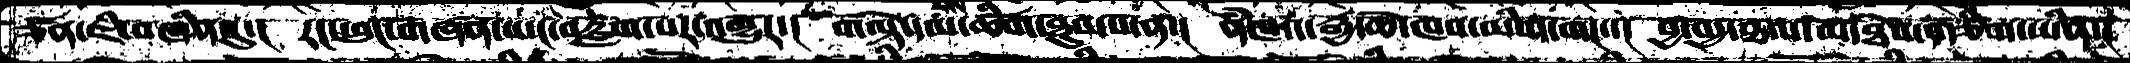ཙན་ཇི་བཞིན་དུ་།  རང་ཕུང་གཞན་ཡང་བརླག་པར་འགྱུར་། གལྟེ་དམ་ཚིག་ཐུབ་པ་ན་། ནཾཁའ་རྒྱ་ཆེ་ཁབ་མིག་གང་་། བྱ་བདྱ་ཐལ་མ་ཐོབ་གཅིག་ཡིན་།
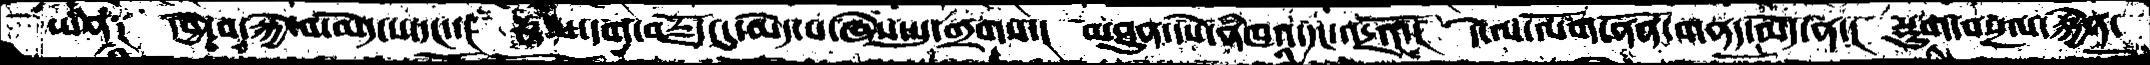ཡིན༑ དབྱེ་བ་སྐྱེ་བ་མེད་པ་དང་་།  རྣམ་དག་བརྗོད་དུ་མེད་པ་ཞེས་སུ་གྲགས་། མཐུན་དཔེ་ནཾཁའ་དང་འདྲའོ་། དེ་ལ་ལོག་ནོན་གནད་མེད་ན་། སྡུག་བསྔལ་རྐྱེན་
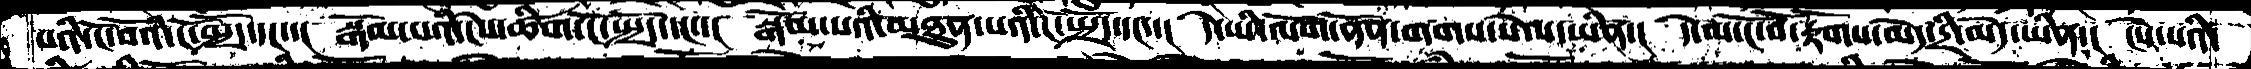པའི་ངོ་བོའི་ངོ་སྤྲོད་དང་་། སྒོམ་པའི་ངེས་ཚིག་ངོ་སྤྲོད་དང་་། སྒོམ་པའི་མཐུན་པའི་ངོ་སྤྲོད་དང་་། དེ་ཡི་ལོག་ནོན་གགས་སེལ་ཡིན་། དེ་ལ་ངོ་བོ་རྟོགས་མེད་དྲི་མེད་ཡིན་། ངེས་པའི་
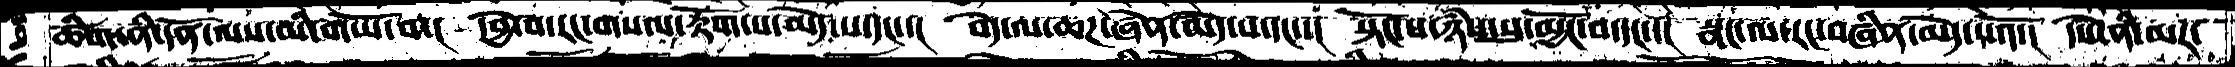ཚིག་ནི་དོན་ལས་མི་གཡོ་བ་། དབྱེ་བ་རང་གསལ་རྟོག་པ་མེད་པ་དང་་། བདེ་ལ་ཆཌ་ཞེན་མེད་པ་དང་་། སྟོང་པ་ཉཾས་སུ་མྱོང་བ་དང་་། སྣང་ལ་རང་བཞིན་མེད་པའོ་། དཔེ་ནི་མར་
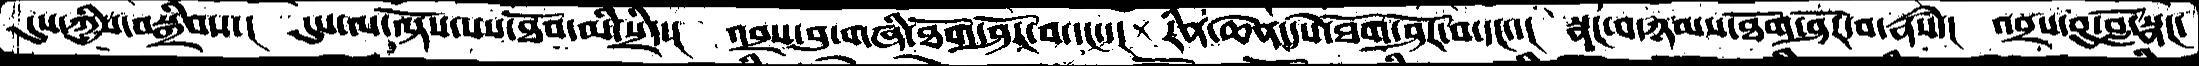དུས་ཀྱིས་བསྒྲིབས་། དུས་ལ་ལྟོས་པས་ཐོབ་མི་སྲིད་། འབྲས་བུ་གཞི་ཐོག་ཤོར་བ་དང་་། རིན་ཆེན་དཔེ་ཐོག་ཤོར་བ་དང་་། སྣང་བ་ཉམས་ཐོག་ཤོར་བ་རྣཾས་། འབྲས་བུ་བློ་སྣང་
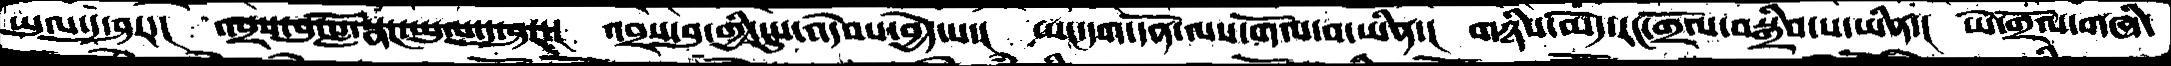ཡུལ་དུ་ཤར་།  འབྲས་བུ་བློ་སྣང་ཡུལ་དུ་ཤར་།  འབྲས་བུ་གྱི་དུས་འདེབས་བྱེད་པ་། ཡང་དག་དོན་ལས་གོལ་བ་ཡིན་། གཉིས་མེད་རང་གྲོལ་བསྒྲིབ་པ་ཡིན་། ཡེ་གྲོལ་གཞི་
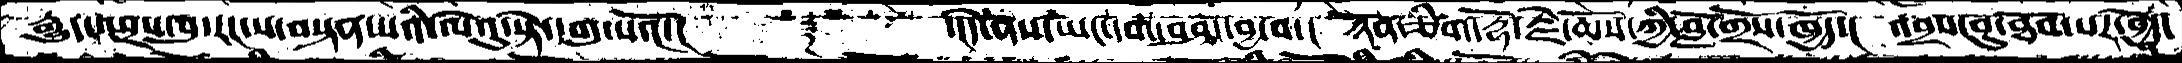རྒྱུ་དང་འབྲས་བུ་རང་ས་བསྟན་པའི་ལེའུ་སྟེ་དགུ་པའོ་།     ༈   ་།དེ་ནས་ཡང་དག་བཤད་བྱ་བ་། ཉོན་ཅིག་རྡོ་རྗེ་ཆོས་ཀྱི་བློ་གྲོས་ཁྱོད་། འབྲས་བུ་ཐོབ་པར་བྱེད་།
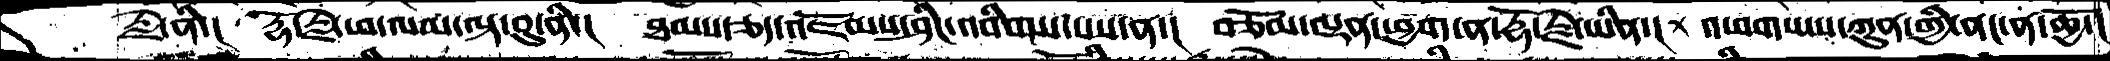རྗེ་ནི་། རྡོ་རྗེ་ཕ་ལམ་ལྟ་བུ་ནི་། ཐམས་ཅད་འཇོམས་ཤིང་འབིགས་པས་ན་། བཅོམ་ལྡན་ཕྱག་ན་རྡོ་རྗེ་ཡིན་། འཕགས་པ་ཀུན་གྱི་ནང་ན་ཆྱོ་།
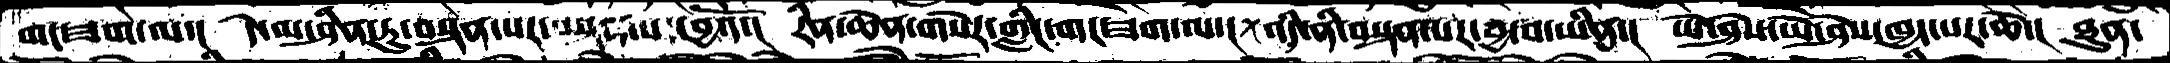གང་ཟག་ལ་། དེ་ལ་ཤིན་ཏུ་བསྟན་པར་བསྟན་པ་བྱའོ་། རིན་ཆེན་གསེར་གླིང་གང་ཟག་ལ་། འདི་ནི་བསྟན་པར་བྱ་བ་ཡིན་། ཡེ་ཤེས་ཡེ་ཤེས་ཁྱད་པར་ཆེ་། ཐུན་
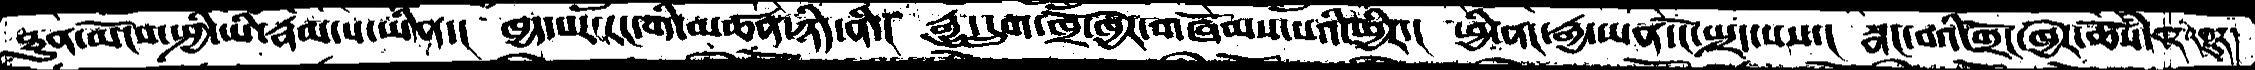ཐུན་མོངས་སྤྱི་ཡི་རྣམ་པ་ཡིན་། ཁྱད་པར་རང་གི་མཚན་ཉིད་ནི་། རྒྱུ་དྲུག་ཁྲོ་ཁྱེར་གཞོམས་པའི་ཕྱིར་། ཕྱི་ནང་རྒྱ་ཡན་ངོ་སྤྲད་པས་། སྣང་བའི་གྲོང་ཁྱེར་ཆོས་བར་འགྱུར་།
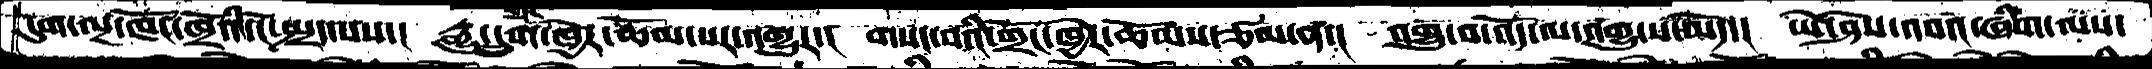དུག་ལྔ་ཁོང་ཁྲོའི་ངོ་སྤྲད་པས་།  རྒྱུང་དྲུག་གྲོང་ཁྱེར་ཆོམ་པར་འགྱུར་།  གསང་བའི་གྲོང་ཁྱེར་ཆོམས་ཙམ་ན་།  འགྲུ་བ་འོད་ལ་འགྱུ་ས་མེད་།  ཡེ་ཤེས་འབའ་ཞིག་ལས་
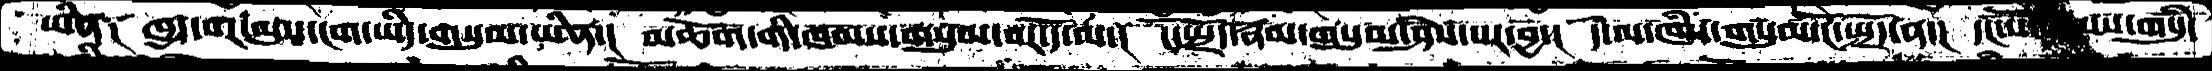ཡིན༑  ཁྱད་པར་ལུས་ངག་ཡིད་གསུམ་ཡིན་།  མཆོག་གི་ཁམས་གསུམ་བར་དོ་ལ་།  ངོ་སྤྲོད་རྣམས་གསུམ་ཤེས་པར་བྱ་།  དེ་ལ་ཁཾས་གསུམ་ངོ་སྤྲོད་ན་།  དངོས་གྲུབ་རྣམས་གསུཾ་
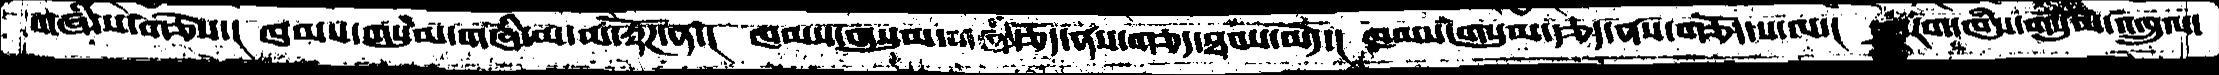གཞི་ས་གཅེས་།  ཁམས་གསུམ་གཞི་མ་མི་རྟོཌ་ན་།  ཁམས་གསུམ་བཞི་རྩོད་ནས་གཅད་ཐབས་མེད་།  ཁམས་གསུམ་རྩད་ནས་གཅོད་པ་ལ་།  སྒྲ་རིག་ཁཾས་གསུམ་འཁྲུལ་
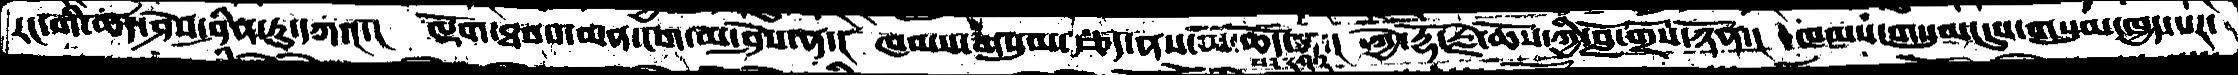རང་གི་ཚད་ཤེས་ཤིན་ཏུ་དཀའ་།  ལྡོག་ཐབས་མན་ངག་མ་ཤེས་ན་།  ཁམས་གསུམ་རྩད་ནས་མ་ཆོད་པར་དགའ་།  ཀྱེ་རྡོ་རྗེ་ཆོས་ཀྱི་བློ་གྲོས་ཉོན་།  ཁམས་གསུམ་དུས་གསུམ་ཁྱད་པར་
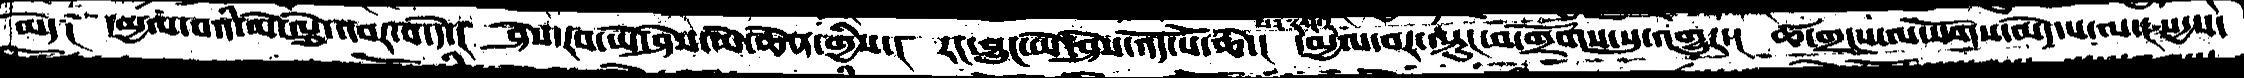མེད༑  དམྱལ་བའི་མེ་ལྕེ་འབར་བ་དེ་།  ཤེས་རབ་ཡེ་ཤེས་མེ་ཆེན་གྱིས་།  རང་བྱུང་ཡེ་ཤེས་འོད་པོ་ཆེ་།  དམྱལ་བར་ལྟུང་བ་གྲོགས་སུ་འགྱུར་།  ཚ་གྲངས་ལ་སོགས་མེད་པ་ལ་།  སདྱས་
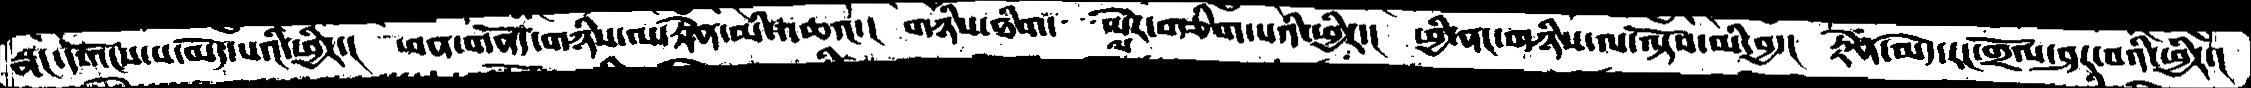སྣང་དགོངས་པ་མེད་པའི་ཕྱིར་། ཕན་གནོད་གཉིས་ལ་རྟེན་མི་འཆའ་། གཉིས་ཐིག་་་ལ་མེར་གཅིག་པའི་ཕྱིར་། ཕྱི་ནང་གཉིས་ལ་ལྟོས་མི་བྱ་། རྟེན་མེད་རང་གྲོལ་ཤར་བའི་ཕྱིར་།
